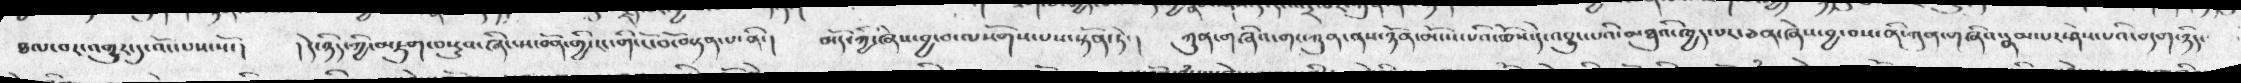ཐལ་བར་འགྱུར་དུ་འོང་པས་སོ་།  ། དེ་ཉིད་ཀྱི་མཇུག་བསྡུས་ཞིང་ས་བོན་གྱི་ངང་གི་ངོ་བོ་བསྟན་པ་ནི་།   མདོ་ཀྱི་ཞིས་བྱ་བ་ལོགས་པས་སྟོན་ཏེ་།  ཀུན་གཞིའ་གང་ཀུན་ནས་ཉོན་མོངས་པའི་ཆོས་དེ་འབྱུང་པའི་ཆོས་དེ་འབྱུང་པའི་མཐུའི་ཁྱད་པར་ཅན་ཞེས་བྱ་བས་ནི་ཀུན་གཞིའ་རྣམ་པར་ཤེས་པའི་བདག་ཉིད་
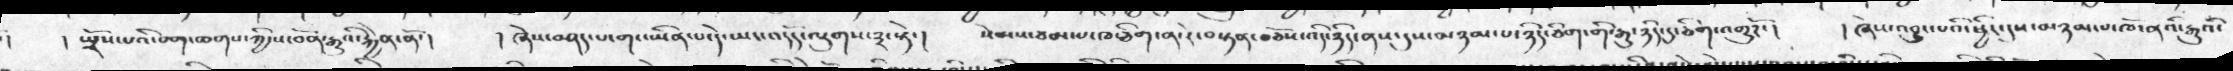།  སྤྲོས་པའི་བག་ཆགས་ཀྱི་ས་བོན་རྒྱུའི་རྐྱེན་ནོ་།   ། ཞེས་བཤད་པ་གང་ཡིན་པ་དེ་ཡང་འདོད་ལུགས་༣་སྟེ་།  སེམས་ཙམ་པ་ཁ་ཅིག་ན་རེ་བསྟན་བཅོས་འདི་ཉིད་ནས་དུས་མཉམ་པ་ཉིད་ཅིག་གི་རྒྱུ་ཉིད་དུ་ཅིག་འགྱུརོ་།  །  ཞེས་འབྱུང་པའི་ཕྱིར་དུས་མཉམ་པ་ཁོ་ནའི་རྒྱུའི་
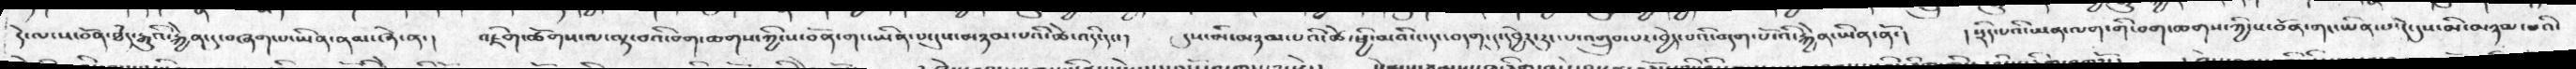དེ་ལ་ས་བོན་ཐཾད་རྒྱུའི་རྐྱེན་དུ་བཞག་པ་ཡིན་ནམ་ཞེ་ན་།  འཇིག་ཚོགས་ལ་ལྟ་བའི་བག་ཆགས་ཀྱིས་ས་བོན་གང་ཡིན་པ་དུས་མཉམ་པའི་ཚེ་འདི་དང་།   དུས་མི་མཉམ་པའི་ཚེ་ཕྱི་མའི་ང་དང་བདག་དུ་དབྱེར་རུང་པ་འགྲུབ་པར་བྱེད་པའི་བདག་པོ་འི་རྐྱེན་ཡོན་ནོ་།   ། སྲིད་པའི་ཡན་ལག་གི་བག་ཆགས་ཀྱི་ས་བོན་གང་ཡིན་པ་དེ་དུས་མི་མཉམ་པའི་
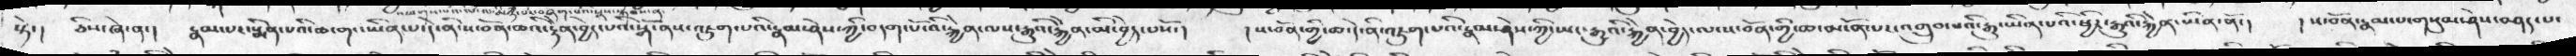སྟེ་།  ཅིས་ཞེ་ན་།  རྣམ་པར་སྨིན་པའི་ཆ་གང་ཡིན་པ་དེ་ནི་ས་བོན་ཆའི་རྟེན་བྱེད་པའི་སྒོ་ནས་འཇུག་པའི་རྣམ་ཤེས་ཀྱི་བདག་པོ་འི་རྐྱེན་ལས་རྒྱུའི་རྐྱེན་མི་བྱེད་པསོ་།   ། ས་བོན་གྱི་ཆ་དེ་ནི་འཇུག་པའི་རྣམ་ཤེས་ཀྱི་ཡང་རྒྱུའི་རྐྱེན་བྱེད་པ་ས་བོན་གྱི་ཆ་མངོན་པར་འགྲུབ་པའི་རྒྱུ་ཡིན་པའི་ཕྱིར་རྒྱུའི་རྐྱེན་ཡིན་ནོ་།  ། ས་བོན་རྣམ་པ་གསུམ་ཤེས་བཤད་པ་
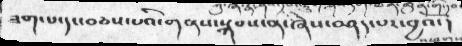ཟག་པ་དང་བཅས་པའི་གནས་སྐབས་ན་ཞེས་བཤད་པར་བྱའོ་།
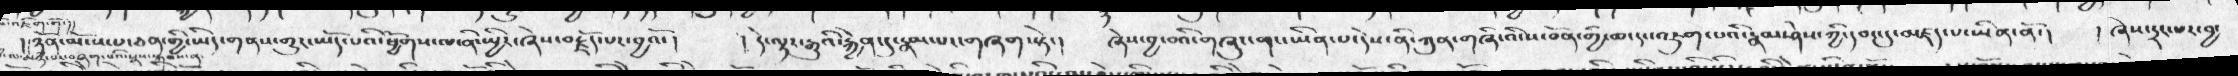། ཉོན་མོངས་པ་ཅན་གྱི་ཡིད་གནས་གྱུར་ཡོད་པའི་ཕྱོགས་ལ་ནི་སྤྱིར་ཞེས་བརྗོད་པར་བྱའོ་།  ། དེ་ལྟར་རྒྱུའི་རྐྱེན་དུ་རྣམ་པང་གཞག་སྟེ་།    ཞེས་བྱ་བའི་གཞུང་གང་ཡིན་པ་དེས་ནི་ཀུན་གཞིའི་ས་བོན་གྱི་ཆ་དང་འཇུག་པའི་རྣམ་ཤེས་ཀྱི་དབང་དུ་མཛད་པ་ཡིན་ནོ་།     ། ཞེས་དྲང་པར་བྱ་
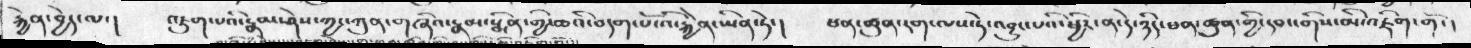རྐྱེན་བྱེད་ལ་།   འཇུག་པའི་རྣམ་ཤེས་ཀྱང་ཀུན་གཞིའ་རྣམ་སྨིན་གྱི་ཆའི་བདག་པོ་འི་རྐྱེན་ཡིན་ཏེ་།  ཕན་ཚུན་རག་ལས་ཏེ་འབྱུང་པའི་ཕྱིར་ན་དེ་ཉིད་ཕན་ཚུན་གྱི་དབང་གིས་མི་འཇིག་གོ་།
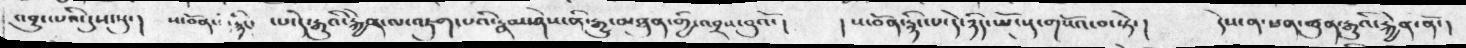འབྱུང་པའི་དུས་སུ་།  ས་བོན་གྱི་རྙིང་   ་པ་དེ་རྒྱུའི་རྐྱེན་ལ་འཇུག་པའི་རྣམ་ཤེས་ནི་རྒྱུ་མཐུན་གྱི་འབྲས་བུའོ་།   །  ས་བོན་རྙིང་པ་དེ་ཉིད་ཡོངསུ་གསོའ་བ་སྟེ་།  དེས་ན་ཕན་ཚུན་རྒྱུའི་རྐྱེན་ནོ་།
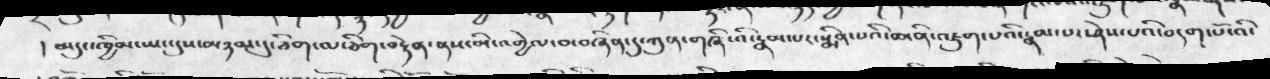།  མདུང་ཁྱིམ་ཡང་དུས་མཉམ་དུ་ཅིག་མ་ཅིག་མ་ཅིག་བརྟེན་ནས་མི་འགྱེལ་བ་བཞིན་དུ་ཀུན་གཞི་འི་རྣམ་པར་སྨིན་པའི་ཆ་ནི་འཇུག་པའི་རྣམ་པར་ཤེས་པའི་བདག་པོ་འི་
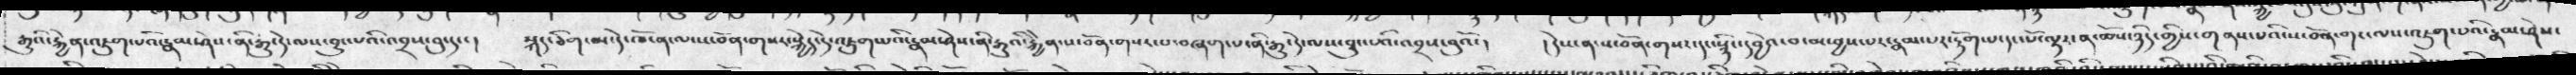རྒྱུ་འི་རྐྱེན་འཇུག་པའི་རྣམ་ཤེས་ནི་རྒྱུ་དེ་ལས་བྱུང་པའི་འབྲས་བུ་དང་།  སྐད་ཅིག་མ་དེ་ཁོ་ན་ལ་ས་བོན་གསར་སྐྱེད་དེ་འཇུག་པའི་རྣམ་ཤེས་ནི་རྒྱུའི་རྐྱེན་ས་བོན་གསར་པ་བཞག་པ་ནི་རྒྱུ་དེ་ལས་བྱུང་པའི་འབྲས་བུའོ་།   །  དེས་ན་ས་བོན་གསར་དང་སྙིང་དབྱེའ་བ་མ་བྱས་པར་རྣམ་པར་རྟོག་པ་དང་པོ་ལྟར་ན་ཆོས་ཉིད་གྱིས་གནས་པའི་ས་བོན་གང་ལས་འཇུག་པའི་རྣམ་ཤེས་
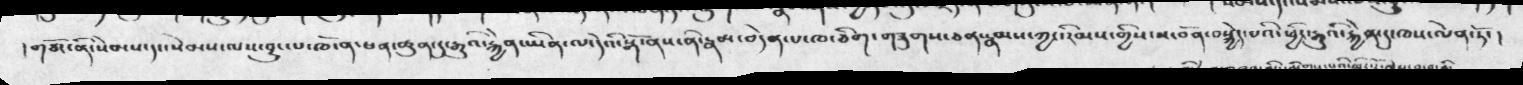།གཅོང་ནི་སེམས་དང་སེམས་ལས་བྱུང་པ་ཁོ་ན་ཕན་ཚུན་དུ་རྒྱུའི་རྐྱེན་ཡིན་ལ་དེའི་སྒོ་ནས་ནི་རྣམ་བདེན་པ་ཁ་ཅིག་གཟུགས་ཅན་རྣམས་ཀྱང་རིམས་གྱིས་ས་བོན་བསྐྱེད་པའི་ཕྱིར་རྒྱུའི་རྐྱེན་དུ་ཁས་ལེན་ཏོ་།
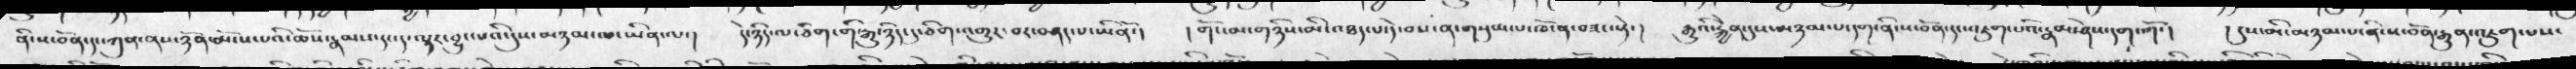ནི་ས་བོན་དང་ཀུན་ནས་ཉོན་མོངས་པའི་ཆོས་རྣམས་དང་ད་ལྟར་བྱུང་པའི་དུས་མཉམ་པ་ཡིན་ལ་།  དེ་ཉིད་ལ་ཅིག་གི་རྒྱུ་ཉིད་དུ་ཅིག་འགྱུར་བར་བཤད་པ་ཡིནོ་།   ། གོང་མ་གཉིས་མི་འཐད་པ་དེ་བས་ན་གསུམ་པ་ཁོ་ན་བཟང་སྟེ་།   རྒྱུའི་རྐྱེན་དུས་མཉམ་པ་དག་ནི་ས་བོན་དང་འཇུག་པའི་རྣམ་ཤེས་དག་གོ་།  ། དུས་མི་མཉམ་པ་ནི་ས་བོན་རྒྱུན་འཇུག་པས་
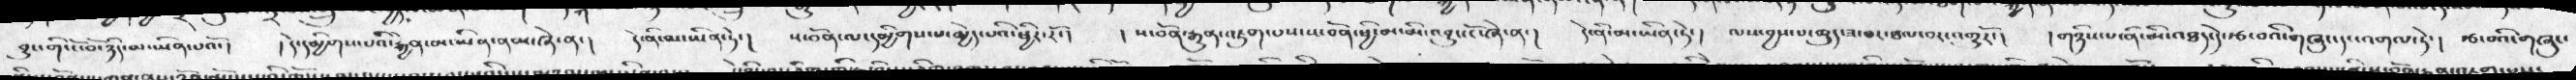བྱུང་གི་ངོ་བོ་ཉིད་མ་ཡིན་པའོ་།  ། དེ་དམྱིགས་པའི་རྐྱེན་མ་ཡིན་ནམ་ཞེ་ན་།  དེ་ནི་མ་ཡིན་ཏེ་།  ས་བོན་ལ་དམྱིགས་པ་མྱེད་པའི་ཕྱིར་རོ་།  ། ས་བོན་རྒྱུན་འཇུག་པས་ས་བོན་ཕྱི་མ་མི་འབྱུང་ངོ་ཞེ་ན་།  དེ་ནི་མ་ཡིན་ཏེ་།  ལས་བྱས་པ་ཆུད་ཟ་བར་ཐལ་བར་འགྱུརོ་།  ། གཉིས་པ་ནི་མི་འཐད་དེ་རྩ་བའི་གཞུང་དང་འགལ་ཏེ་།    རྩ་བའི་གཞུང་
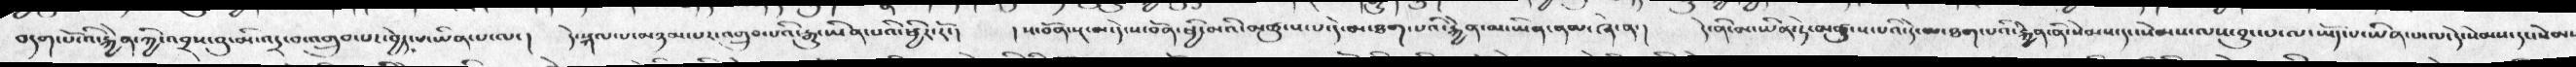བདག་པོ་འི་རྐྱེན་ཀྱི་འབྲས་བུ་མི་འདྲ་བ་འགྲུབ་པར་བྱེད་པ་ཡིན་པ་ལ་།  དེ་སྐལ་པ་མཉམ་པར་འགྲུབ་པའི་རྒྱུ་ཡིན་པའི་ཕྱིར་རོ་།  ། ས་བོན་སྔ་མ་དེ་ས་་བོན་ཕྱི་མའི་མཚུངས་པ་དེ་མ་ཐག་པའི་རྐྱེན་མ་ཡིན་ནམ་ཞེ་ན་།  དེ་ནི་མ་ཡིན་ཏེ་མཚུངས་པའི་དེ་མ་ཐག་པའི་རྐྱེན་ནི་སེམས་ད་སེམས་ལས་བྱུང་པ་ལ་ཡོད་པ་ཡིན་པ་ལ་དེ་སེམས་དང་སེམ
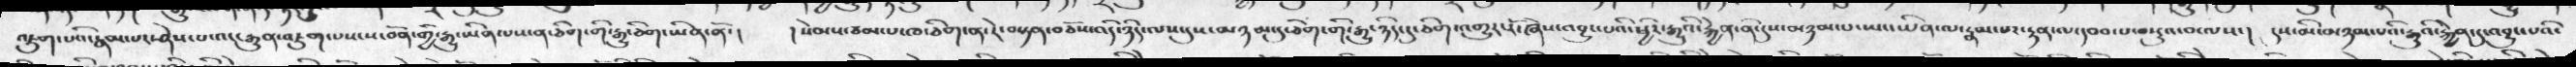འཇུག་པའི་རྣམ་པར་ཤེས་པ་འང་རྒྱུན་འཇུག་པས་ས་བོན་གྱི་རྒྱུ་ཡིན་པས་ན་ཅིག་གི་རྒྱུ་ཅིག་ཡིན་ནོ་།  ། སེམས་ཙམ་པ་ཁ་ཅིག་ན་རེ་བསྟན་བཅོས་དེ་ཉིད་ལས་དུས་མཉམ་དུ་ཅིག་གི་རྒྱུ་ཉིད་དུ་ཅིག་འགྱུར་རོ་ཞེས་འབྱུང་པའི་ཕྱིར་རྒྱུའི་རྐྱེན་ནི་སུས་ཉམ་པ་ཡང་ཡིན་མ་རྣམ་པརྟན་ལ་དབབ་པ་བསྡུས་པ་ལས་།   དུས་མི་མཉམ་པའི་རྒྱུའི་རྐྱེན་དུ་འབྱུང་པའི་
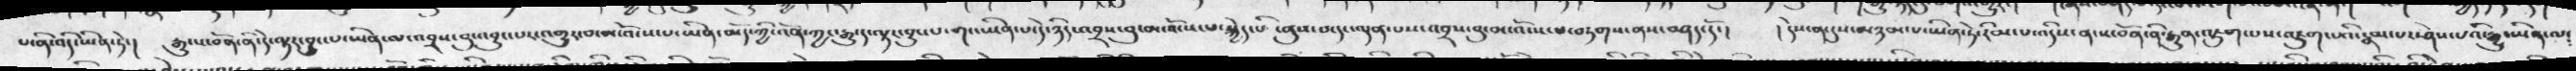པ་ནི་འདི་ཡིན་ཏེ་།  རྒྱུ་ས་བོན་ནི་དེ་ལྟར་བྱུང་པ་ཡིན་ལ་འབྲས་བུ་འབྱུང་པར་འགྱུར་པ་མ་འོངས་པ་ཡིན་མོད་ཀྱི་འོན་ཀྱང་རྒྱུ་ད་ལྟར་བྱུང་པ་གང་ཡིན་པ་དེ་ཉིད་འབྲས་བུ་མ་འོངས་པ་སྐྱེད་པའི་ནུས་པ་དང་ལྡན་པས་འབྲས་བུ་མ་འོངས་པ་བཏགས་ནས་བཤད་དོ་།  ། དེས་ན་དུས་མཉམ་པ་ཡིན་ཏེ་རིམ་པ་འདིས་ན་ས་བོན་ནི་རྒྱུན་འཇུག་པས་འཇུག་པའི་རྣམ་པ་ཤེས་པའི་རྒྱུ་ཡིན་ལ།
